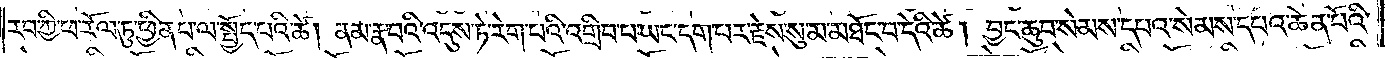རབ་ཀྱི་ཕ་རོལ་ཏུ་ཕྱིན་པ་ལ་སྤྱོད་པའི་ཚེ། ནམ་རྣ་བའི་འདུས་ཏེ་རེག་པའི་འགྲིབ་པ་ཡང་དག་པར་རྗེས་སུ་མ་མཐོང་བ་དེའི་ཚེ། བྱང་ཆུབ་སེམས་དཔའ་སེམས་དཔའ་ཆེན་པོའི་
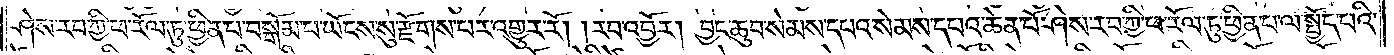ཤེས་རབ་ཀྱི་ཕ་རོལ་ཏུ་ཕྱིན་པ་བསྒོམ་པ་ཡོངས་སུ་རྫོགས་པར་འགྱུར་རོ། །རབ་འབྱོར། བྱང་ཆུབ་སེམས་དཔའ་སེམས་དཔའ་ཆེན་པོ་ཤེས་རབ་ཀྱི་ཕ་རོལ་ཏུ་ཕྱིན་པ་ལ་སྤྱོད་པའི་
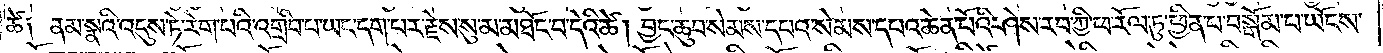ཚེ། ནམ་སྣའི་འདུས་ཏེ་རེག་པའི་འགྲིབ་པ་ཡང་དག་པར་རྗེས་སུ་མ་མཐོང་བ་དེའི་ཚེ། བྱང་ཆུབ་སེམས་དཔའ་སེམས་དཔའ་ཆེན་པོའི་ཤེས་རབ་ཀྱི་ཕ་རོལ་ཏུ་ཕྱིན་པ་བསྒོམ་པ་ཡོངས་
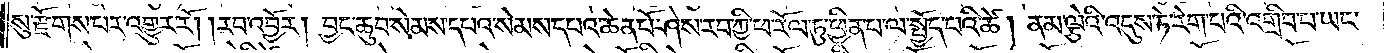སུ་རྫོགས་པར་འགྱུར་རོ། །རབ་འབྱོར། བྱང་ཆུབ་སེམས་དཔའ་སེམས་དཔའ་ཆེན་པོ་ཤེས་རབ་ཀྱི་ཕ་རོལ་ཏུ་ཕྱིན་པ་ལ་སྤྱོད་པའི་ཚེ། ནམ་ལྕེའི་འདུས་ཏེ་རེག་པའི་འགྲིབ་པ་ཡང་
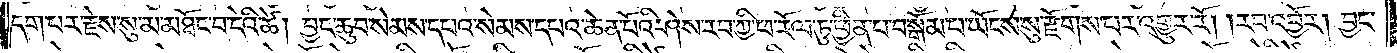དག་པར་རྗེས་སུ་མ་མཐོང་བ་དེའི་ཚེ། བྱང་ཆུབ་སེམས་དཔའ་སེམས་དཔའ་ཆེན་པོའི་ཤེས་རབ་ཀྱི་ཕ་རོལ་ཏུ་ཕྱིན་པ་བསྒོམ་པ་ཡོངས་སུ་རྫོགས་པར་འགྱུར་རོ། །རབ་འབྱོར། བྱང་
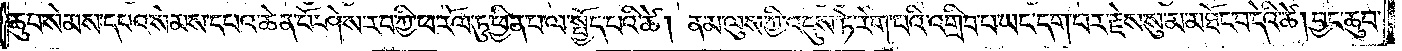ཆུབ་སེམས་དཔའ་སེམས་དཔའ་ཆེན་པོ་ཤེས་རབ་ཀྱི་ཕ་རོལ་ཏུ་ཕྱིན་པ་ལ་སྤྱོད་པའི་ཚེ། ནམ་ལུས་ཀྱི་འདུས་ཏེ་རེག་པའི་འགྲིབ་པ་ཡང་དག་པར་རྗེས་སུ་མ་མཐོང་བ་དེའི་ཚེ། བྱང་ཆུབ་
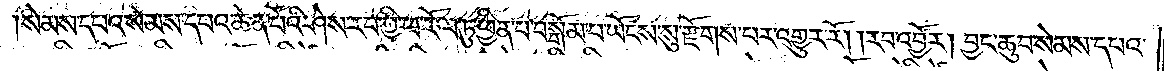སེམས་དཔའ་སེམས་དཔའ་ཆེན་པོའི་ཤེས་རབ་ཀྱི་ཕ་རོལ་ཏུ་ཕྱིན་པ་བསྒོམ་པ་ཡོངས་སུ་རྫོགས་པར་འགྱུར་རོ། །རབ་འབྱོར། བྱང་ཆུབ་སེམས་དཔའ་
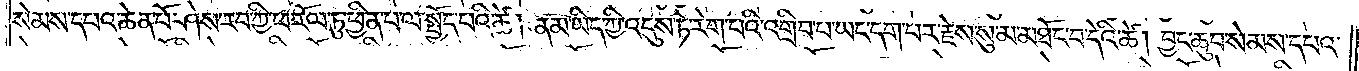སེམས་དཔའ་ཆེན་པོ་ཤེས་རབ་ཀྱི་ཕ་རོལ་ཏུ་ཕྱིན་པ་ལ་སྤྱོད་པའི་ཚེ། ནམ་ཡིད་ཀྱི་འདུས་ཏེ་རེག་པའི་འགྲིབ་པ་ཡང་དག་པར་རྗེས་སུ་མ་མཐོང་བ་དེའི་ཚེ། བྱང་ཆུབ་སེམས་དཔའ་
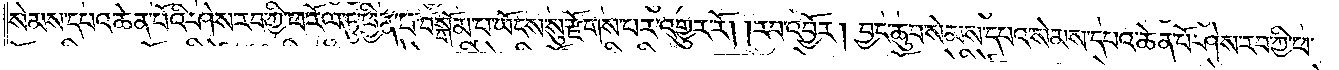སེམས་དཔའ་ཆེན་པོའི་ཤེས་རབ་ཀྱི་ཕ་རོལ་ཏུ་ཕྱིན་པ་བསྒོམ་པ་ཡོངས་སུ་རྫོགས་པར་འགྱུར་རོ། །རབ་འབྱོར། བྱང་ཆུབ་སེམས་དཔའ་སེམས་དཔའ་ཆེན་པོ་ཤེས་རབ་ཀྱི་ཕ་
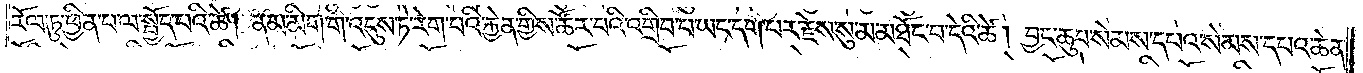རོལ་ཏུ་ཕྱིན་པ་ལ་སྤྱོད་པའི་ཚེ། ནམ་མིག་གི་འདུས་ཏེ་རེག་པའི་རྐྱེན་གྱིས་ཚོར་བའི་འགྲིབ་པ་ཡང་དག་པར་རྗེས་སུ་མ་མཐོང་བ་དེའི་ཚེ། བྱང་ཆུབ་སེམས་དཔའ་སེམས་དཔའ་ཆེན་
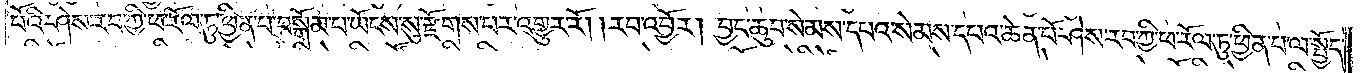པོའི་ཤེས་རབ་ཀྱི་ཕ་རོལ་ཏུ་ཕྱིན་པ་བསྒོམ་པ་ཡོངས་སུ་རྫོགས་པར་འགྱུར་རོ། །རབ་འབྱོར། བྱང་ཆུབ་སེམས་དཔའ་སེམས་དཔའ་ཆེན་པོ་ཤེས་རབ་ཀྱི་ཕ་རོལ་ཏུ་ཕྱིན་པ་ལ་སྤྱོད་
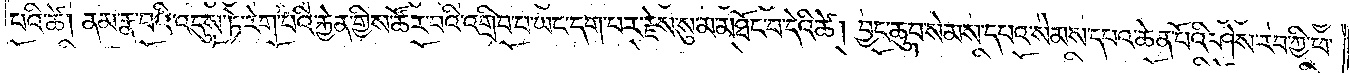པའི་ཚེ། ནམ་རྣ་བའི་འདུས་ཏེ་རེག་པའི་རྐྱེན་གྱིས་ཚོར་བའི་འགྲིབ་པ་ཡང་དག་པར་རྗེས་སུ་མ་མཐོང་བ་དེའི་ཚེ། བྱང་ཆུབ་སེམས་དཔའ་སེམས་དཔའ་ཆེན་པོའི་ཤེས་རབ་ཀྱི་ཕ་
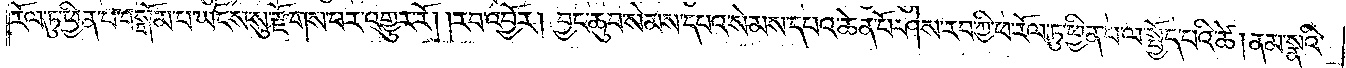རོལ་ཏུ་ཕྱིན་པ་བསྒོམ་པ་ཡོངས་སུ་རྫོགས་པར་འགྱུར་རོ། །རབ་འབྱོར། བྱང་ཆུབ་སེམས་དཔའ་སེམས་དཔའ་ཆེན་པོ་ཤེས་རབ་ཀྱི་ཕ་རོལ་ཏུ་ཕྱིན་པ་ལ་སྤྱོད་པའི་ཚེ། ནམ་སྣའི་
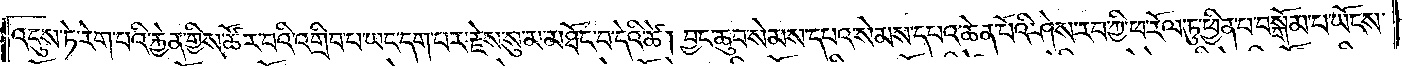འདུས་ཏེ་རེག་པའི་རྐྱེན་གྱིས་ཚོར་བའི་འགྲིབ་པ་ཡང་དག་པར་རྗེས་སུ་མ་མཐོང་བ་དེའི་ཚེ། བྱང་ཆུབ་སེམས་དཔའ་སེམས་དཔའ་ཆེན་པོའི་ཤེས་རབ་ཀྱི་ཕ་རོལ་ཏུ་ཕྱིན་པ་བསྒོམ་པ་ཡོངས་
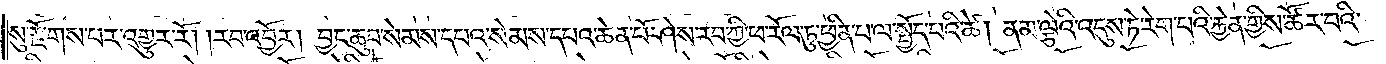སུ་རྫོགས་པར་འགྱུར་རོ། །རབ་འབྱོར། བྱང་ཆུབ་སེམས་དཔའ་སེམས་དཔའ་ཆེན་པོ་ཤེས་རབ་ཀྱི་ཕ་རོལ་ཏུ་ཕྱིན་པ་ལ་སྤྱོད་པའི་ཚེ། ནམ་ལྕེའི་འདུས་ཏེ་རེག་པའི་རྐྱེན་གྱིས་ཚོར་བའི་
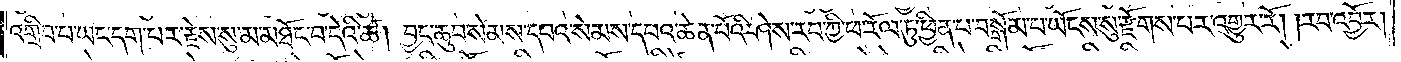འགྲིབ་པ་ཡང་དག་པར་རྗེས་སུ་མ་མཐོང་བ་དེའི་ཚེ། བྱང་ཆུབ་སེམས་དཔའ་སེམས་དཔའ་ཆེན་པོའི་ཤེས་རབ་ཀྱི་ཕ་རོལ་ཏུ་ཕྱིན་པ་བསྒོམ་པ་ཡོངས་སུ་རྫོགས་པར་འགྱུར་རོ། །རབ་འབྱོར།
